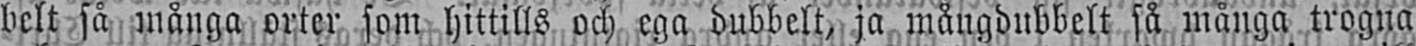belt så många orter som hittills och ega dubbelt, ja mångdubbelt så många trogna
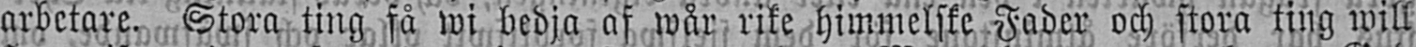arbetare. Stora ting få wi bedja af wår rike himmelske Fader och stora ting will
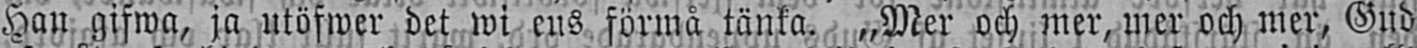Han gifwa, ja utöfwer det wi ens förmå tänka. "Mer och mer, mer och mer, Gud
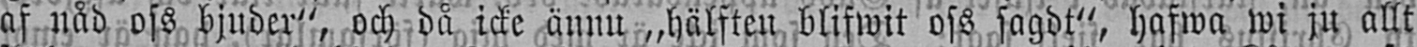af nåd oss bjuder", och då icke ännu „hälften blifwit oss sagdt", hafwa wi ju allt
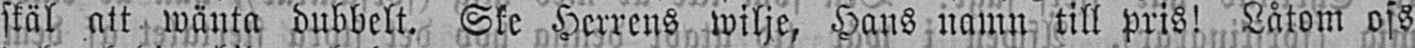skäl att wänta dubbelt. Ske Herrens wilje, Hans namn till pris! Låtom oss
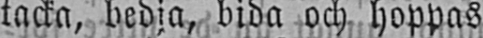tacka, bedja, bida och hoppas.
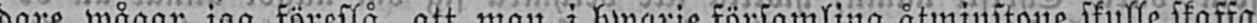Widare wågar jag föreslå, att man i hwarje församling åtminstone skulle skaffa
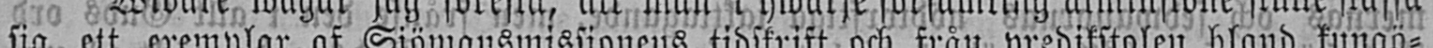sig ett exemplar af Sjömansmissionens tidskrift och från predikstolen bland kungö-
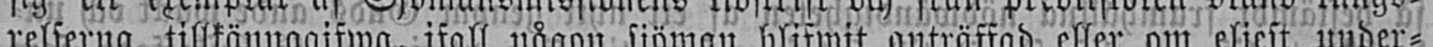relserna tillkännagifwa, ifall någon sjöman blifwit anträffad eller om eljest under-
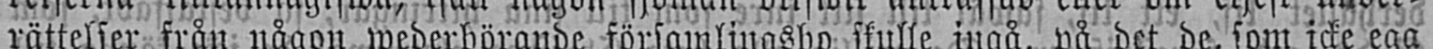rättelser från någon wederbörande församlingsbo skulle ingå, på det de, som icke ega
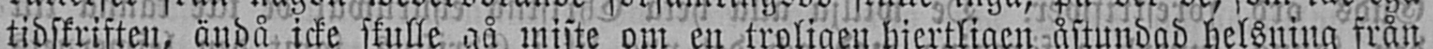tidskriften, ändå icke skulle gå miste om en troligen hjertligen åstundad helsning från
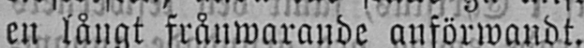en långt frånwarande anförwandt.
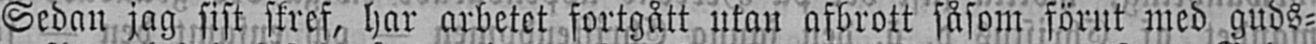Sedan jag sist skref, har arbetet fortgått utan afbrott såsom förut med guds-
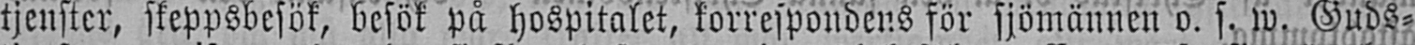tjenster, skeppsbesök, besök på hospitalet, korrespondens för sjömännen o. s. w. Guds-
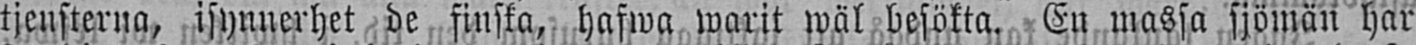tjensterna, isynnerhet de finska, hafwa warit wäl besökta. En massa sjömän har
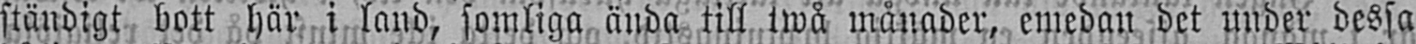ständigt bott här i land, somliga ända till twå månader, emedan det under dessa
